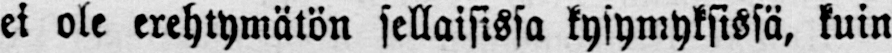ei ole erehtymätön sellaisissa kysymyksissä, kuin
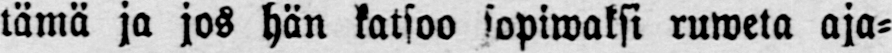tämä ja jos hän katsoo sopiwaksi ruweta aja-
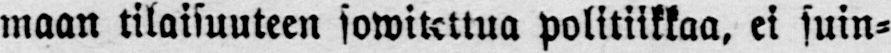maan tilaisuuteen sowitettua politiikkaa, ei suin-
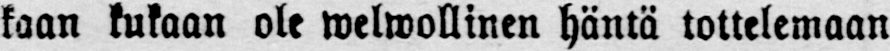kaan kukaan ole welwollinen häntä tottelemaan
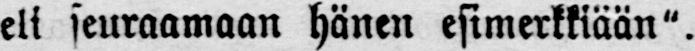eli seuraamaan hänen esimerkkiään".
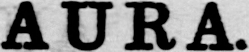AURA.
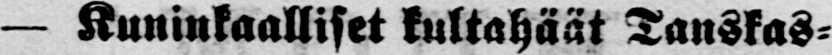— Kuninkaalliset kultahäät Tanskas-
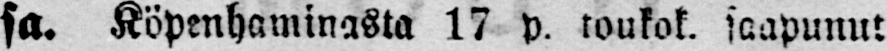sa. Köpenhaminasta 17 p. roukok. saapunut
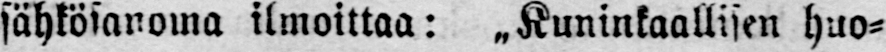sähkösanoma ilmoittaa: „Kuninkaallisen huo-
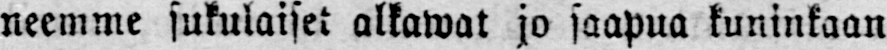neemme sukulaiset alkawat jo saapua kuninkaan
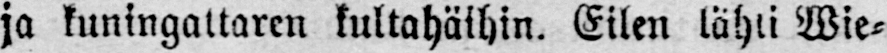ja kuningaltaren kultahäihin. Eilen lahti Wie-
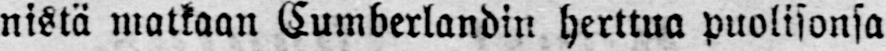nistä matkaan Cumberlandin herttua puolisonsa
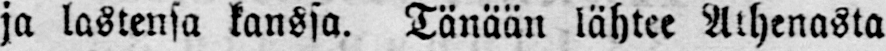ja lastensa kanssa. Tänään lähtee Athenasta
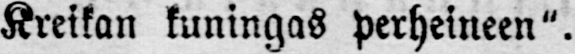Kreikan kuningas perheineen".
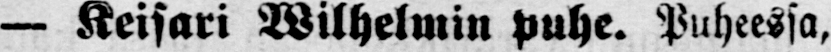— Keisari Wilhelmin puhe. Puheessa,
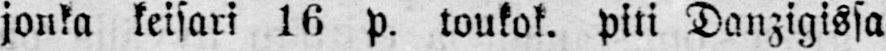jonka keisari 16 p. toukok. piti Danzigissa
